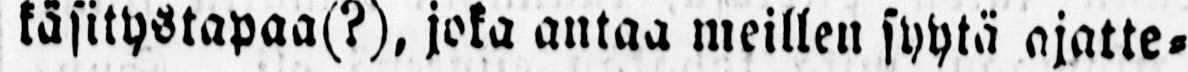käsitystapaa(?) joka antaa meillen syytä ajatte-
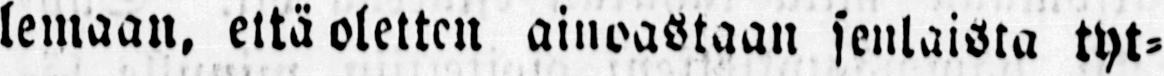lemaan. että oletten ainoastaan senlaista tyt-
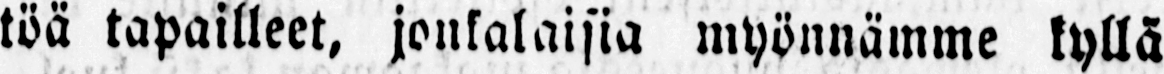töä tapailleet, jonkalaisia myönnämme kyllä
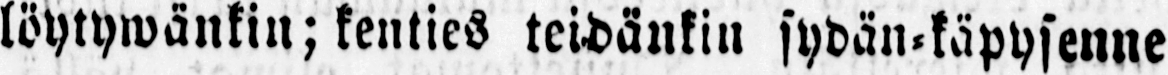löytywänkin; kenties teidänkin sydän-käpysenne
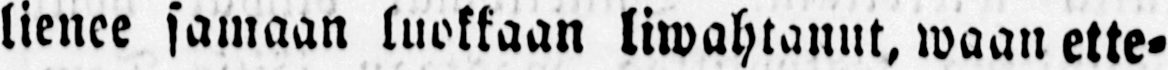lienee samaan luokkaan liwahtanut, waan ette-
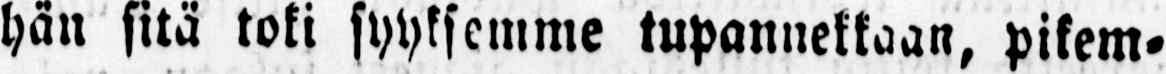hän sitä toki syyksemme tupannekkaan, pikem-
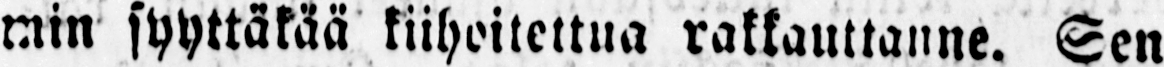min syyttäkää kiihoitettua rakkauttanne. Sen
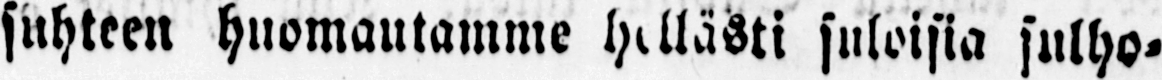suhteen huomautamme H@llästi suloisia sulho-
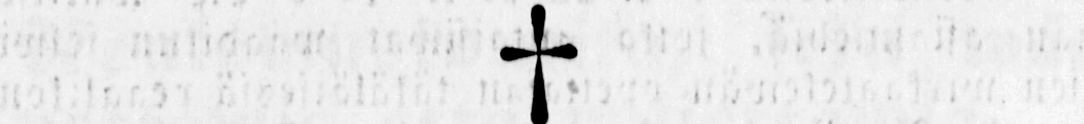†
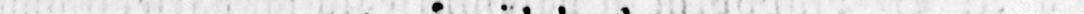att vår älskade son
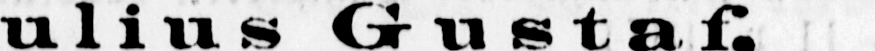Julius Gustaf,
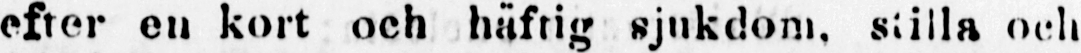efter en kort och häfrig sjukdom, stilla och
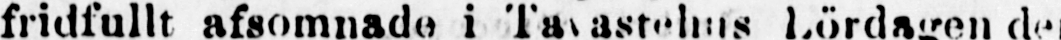fridfullt afsomnsde i Tavastehus Lördagen den
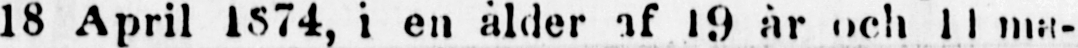18 April 1874, i en ålder af 19 år och 11 må-
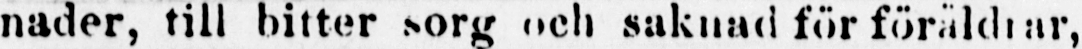nader, till bitter sorg och saknad föräldrar,
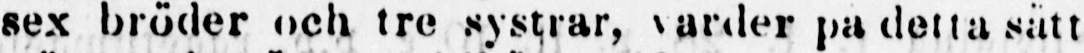sex bröder och tre systrar, varder på detta sätt
